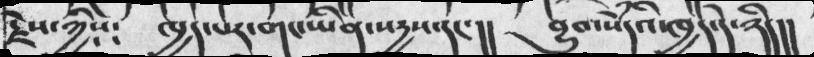རྗེས་ཀྱིས༴    ཁྱད་པར་གང་ཡིན་སདྱས་དང་།།  བྱུབ་སེཾདའི་ཁྱད་དེ་ཉིད།།
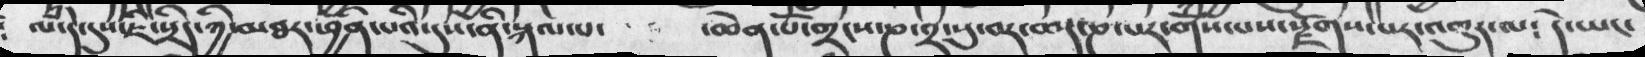ལཾ་དེ་དུས་ཇི་སྲིད་ཀྱི་མཐར་ཕྱིན་པའི་དུས་ནི་སྐལ་པ་        ་ཆེན་པོ་གྲངས་ཎ་༢་སུ་བར་ཆད་ཎ་པར་གོས་པས་རྫོགས་པར་འགྱུར་ལ༴  དེ་ཡང་
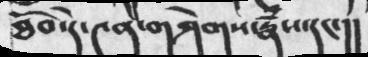ཐོབ་དེ་༤ན་གཤེགས་རྣཾས་དང་།།
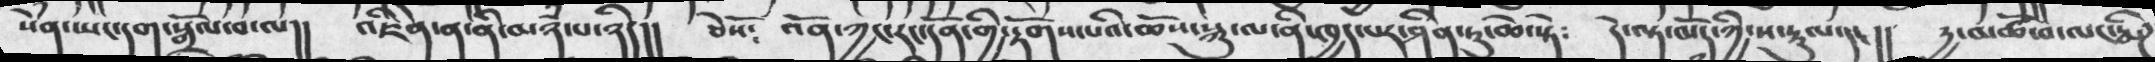སེཾན་ཡང་དག་སྒྲོལ་བ་ལ།།  འཇིེན་ན་ནི་མཉཾ་པ་ཉིད།།  ཅེསོ༴   འོན་ཀྱང་རང་དོན་གྱི་རྟོགས་པའི་ཆོས་སྐུ་ལ་ནི་ཁྱད་པར་ཤིན་ཏུ་ཆེ་སྟེ༴    དེ་ལྟ་མོད་ཀྱི་ས་རྟུལ་དང་།།  དྱ་མཚོ་བ་ལང་རྨིཌ
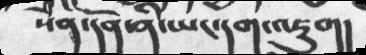སེཾན་དོན་ནི་ཡང་དག་འཇུག།
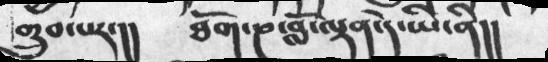གྲུབ་པར་།།   ཐོག་ཌ་བློ་ལྟན་དེ་ཡི་ནི།།
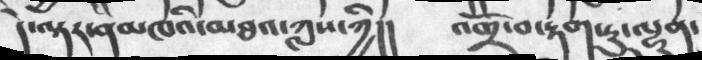དེ་ལྟར་ནམཁའི་མཐའ་ཀླས་ཀྱི།།  འགྲོ་བ་རྟག་ཏུ་ལྷུན་
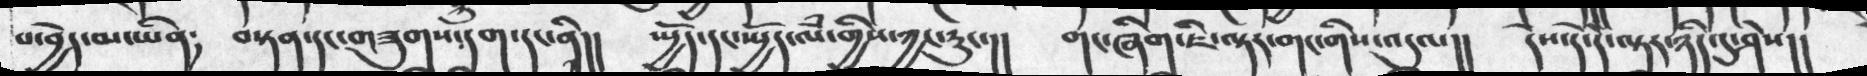པ་བྱེད་མ་ཡིན༴  བསྟན་དང་གཟུགས་དག་དང་ནི།།  སྤྱོད་དང་སྤྱོད་ལཾ་གྱིས་ཀྱང་རུང་།།  གང་ཞིག་ཇི་ལྟར་གང་གིས་འདུལ།། དེས་དེ་དེ་ལྟར་ཉིད་དུ་ཤེས།།
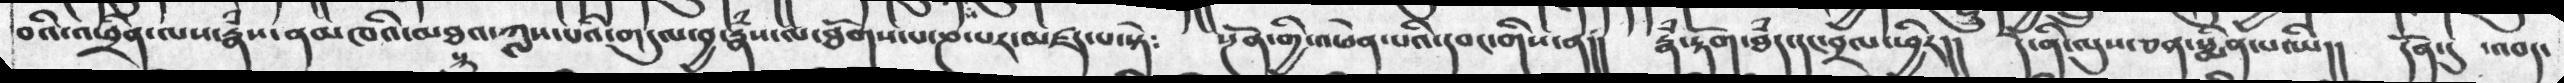བའི་འཕྲིན་ལས་རྣཾས་ནམཁའི་མཐའ་ཀླས་པའི་གདུལ་བྱ་རྣཾས་ལ་ཐོགས་པ་ཎ་པར་མཛད་པ་སྟེ༴    སྔོན་གྱི་འཕེན་པའི་དབང་གིས་ན།།  རྣཾ་རྟོག་ཐཾད་དང་བྲལ་ཕྱིར།།  དེ་ནི་ལུས་ཅན་སྨིན་པ་ཡི།།  དོན་དུ་འབད་
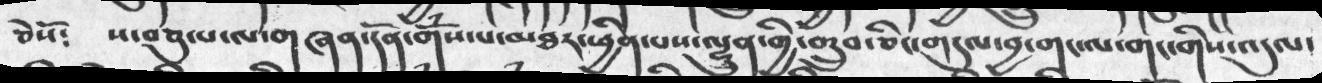ཅེསོ༴   ས་བཅུ་པ་ལ་གཞན་དོན་གོཾས་པ་མཐར་ཕྱིན་པས་ལྷུན་གྱི་གྲུབ་ཅིང་གདུལ་བྱ་གང་ལ་གང་གིས་འདུལ་
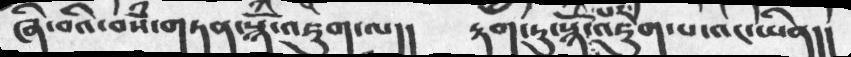ཞི་བའི་བསཾ་གཏན་སྙཾ་འཇུག་ལ།།  རྟག་ཏུ་སྙོཾ་པར་འཇུག་པ་འང་ཡིན།།
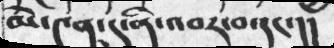མེ་༤ན་དུ་ནི་འབར་བ་དང་།།
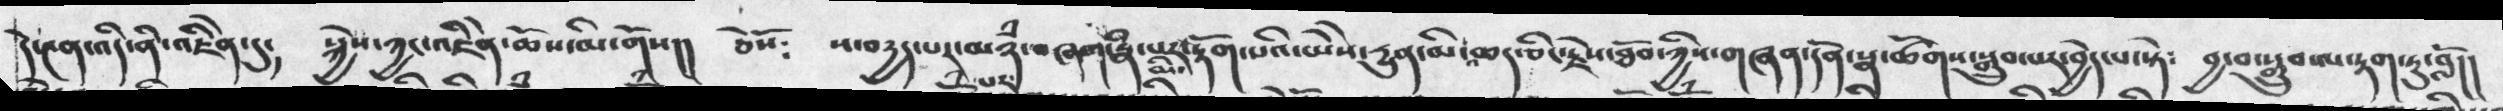དེ་༤ན་འདི་ནི་འཇིེན་དུ༴  སྐྱེས་ཀྱང་འཇིེན་ཆོས་མི་གོས།།  ཅེསོ༴  ས་བདྱད་པར་མཉཾ་བཞག་རྣཾ་པར་མི་རྟོག་པའི་ཡེེས་དྱུན་མི་ཆད་ཅིང་རྗེས་ཐོབ་ཀྱིས་གཞན་དོན་སྣ་ཚོགས་སྒྲུབ་པར་བྱེད་པ་སྟེ༴  བྱ་བ་སྒྲུབ་ལ་རྟག་ཏུ་བློ།།
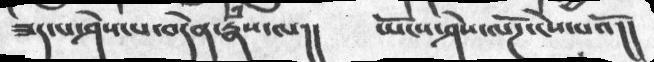ཟད་པ་ཤེས་པ་བདེན་རྣཾས་ལ།།   ཡོངས་ཤེས་ལོཌ་ངེས་པའོ།།
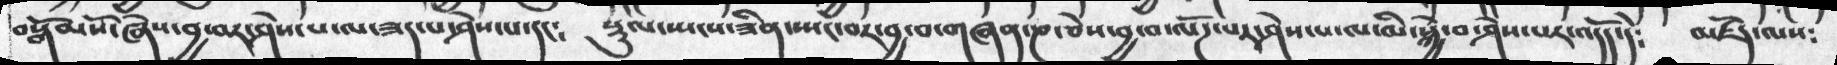བསྒོམསོ་ཞེས་བྱ་བར་ཤེས་པ་ལ་ཟད་པ་ཤེས་པ་དང༴   སྡུལ་སྤངས་ཟིན་སྤང་བར་བྱ་བ་གཞན་ཎ་ཅེས་བྱ་བ་ལོཌ་པར་ཤེས་པ་ལ་མི་སྐྱེ་བ་ཤེས་པར་འདོད་དེ༴   མཛོད་ལས༴
